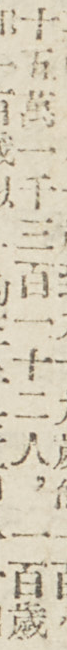十五萬一千三百一十二人，一百歲
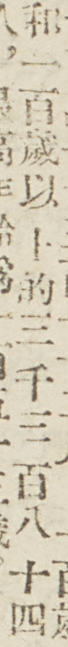和一百歲以上的三千三百八十四
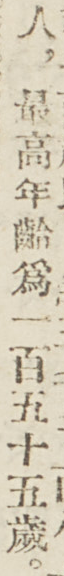人，最高年齡爲一百五十五歲。
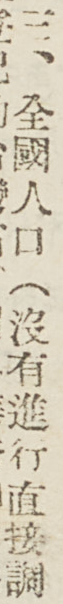三、全國人口（沒有進行直接調
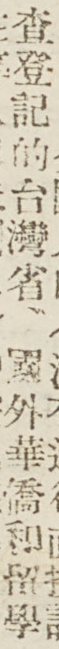查登記的台灣省、國外華僑和留學
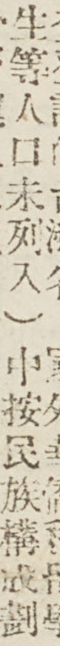生等人口未列入）中按民族構成劃
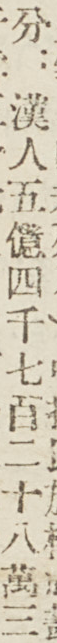分：漢人五億四千七百二十八萬三
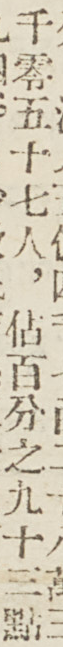千零五十七人，佔百分之九十三點
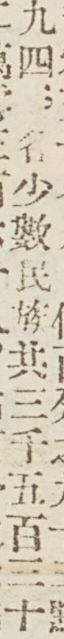九四；各少數民族共三千五百三十
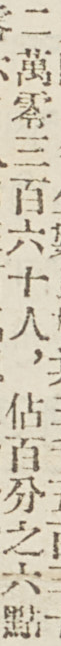二萬零三百六十人，佔百分之六點
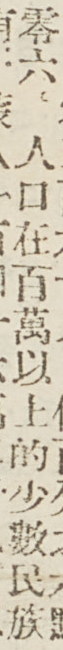零六。人口在百萬以上的少數民族
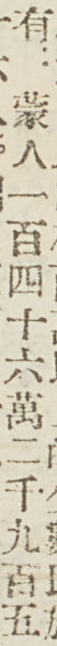有：蒙人一百四十六萬二千九百五
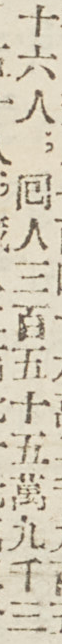十六人；囘人三百五十五萬九千三
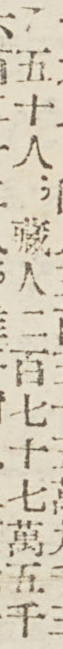百五十人；藏人二百七十七萬五千
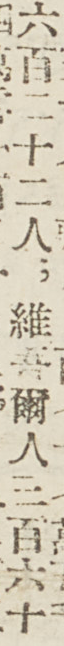六百二十二人；維吾爾人三百六十
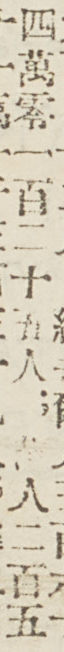四萬零一百二十五人；苗人二百五
